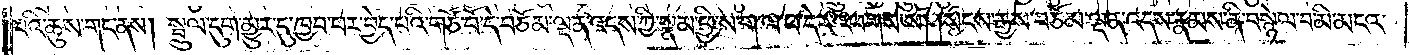པའི་ཆུས་གང་ནས། སྦྲུལ་དུག་མྱུར་དུ་ཁྱབ་པར་བྱེད་པའི་གཙོ་བོ་དེ་བཅོམ་ལྡན་འདས་ཀྱི་སྣམ་ཕྱི་ས་ག་ལབ་དེར་འཕགས་སོ། །སངས་རྒྱས་བཅོམ་ལྡན་འདས་རྣམས་ནི་བསྙེལ་བ་མི་མངའ་
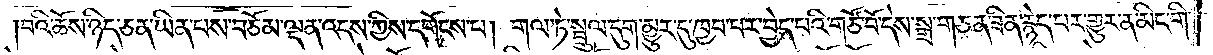བའི་ཆོས་ཉིད་ཅན་ཡིན་པས་བཅོམ་ལྡན་འདས་ཀྱིས་དགོངས་པ། གལ་ཏེ་སྦྲུལ་དུག་མྱུར་དུ་ཁྱབ་པར་བྱེད་པའི་གཙོ་བོ་དེས་སྒྲ་གཅན་ཟིན་རྙེད་པར་གྱུར་ན་མིང་གི་
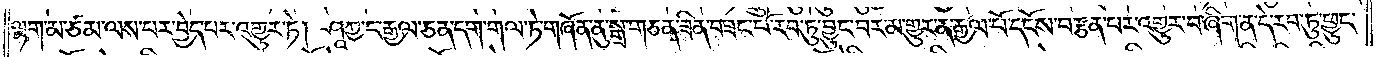ལྷག་མ་ཙམ་ལས་པར་བྱེད་པར་འགྱུར་ཏེ། ཤཱཀྱ་ང་རྒྱལ་ཅན་དག་གལ་ཏེ་གཞོན་ནུ་སྒྲ་གཅན་ཟིན་བཟང་པོ་རབ་ཏུ་བྱུང་བར་མ་གྱུར་ན་རྒྱལ་པོ་དངོས་བརྩན་པར་འགྱུར་བ་ཞིག་ན་དེ་རབ་ཏུ་ཕྱུང་
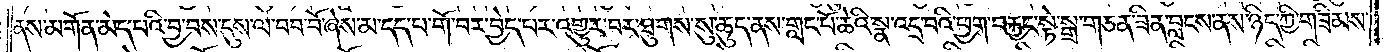ནས་མགོན་མེད་པའི་བྱ་བས་དུས་ལ་བབ་བོ་ཞེས་མ་དད་པ་གོ་བར་བྱེད་པར་འགྱུར་བར་ཐུགས་སུ་ཆུད་ནས་གླང་པོ་ཆེའི་སྣ་འདྲ་བའི་ཕྱག་བརྐྱང་སྟེ་སྒྲ་གཅན་ཟིན་བླངས་ནས་ཉིད་ཀྱི་གཟིམས་
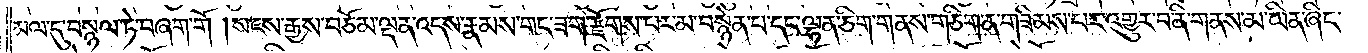མལ་དུ་བསྙལ་ཏེ་བཞག་གོ །སངས་རྒྱས་བཅོམ་ལྡན་འདས་རྣམས་གང་ཟག་རྫོགས་པར་མ་བསྙེན་པ་དང་ལྷན་ཅིག་གནས་གཅིག་ན་གཟིམས་པར་འགྱུར་བ་ནི་གནས་མ་ཡིན་ཞིང་
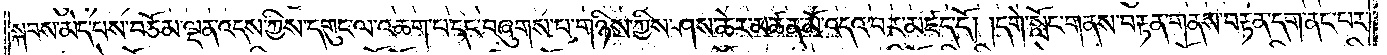སྐབས་མེད་པས་བཅོམ་ལྡན་འདས་ཀྱིས་དགུང་ལ་འཆག་པ་དང་བཞུགས་པ་གཉིས་ཀྱིས་ཤས་ཆེར་མཚན་མོ་འདའ་བར་མཛད་དོ། །དགེ་སློང་གནས་བརྟན་གནས་བརྟན་དག་ནང་པར་
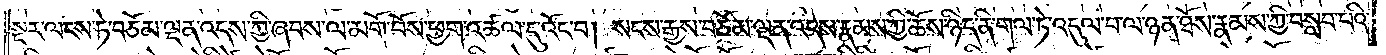སྔར་ལངས་ཏེ་བཅོམ་ལྡན་འདས་ཀྱི་ཞབས་ལ་མགོ་བོས་ཕྱག་འཚལ་དུ་འོང་བ། སངས་རྒྱས་བཅོམ་ལྡན་འདས་རྣམས་ཀྱི་ཆོས་ཉིད་ནི་གལ་ཏེ་འདུལ་བ་ལ་ཉན་ཐོས་རྣམས་ཀྱི་བསླབ་པའི་
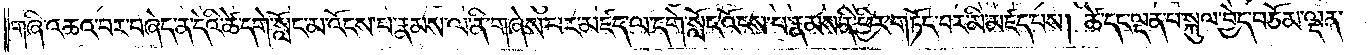གཞི་འཆའ་བར་བཞེད་ན་དེའི་ཚེ་དགེ་སློང་མ་འོངས་པ་རྣམས་ལ་ནི་གཞེས་པར་མཛད་ལ་དགེ་སློང་འོངས་པ་རྣམས་ནི་ཕྱིར་གཏོང་བར་མི་མཛད་པས། ཚེ་དང་ལྡན་པ་སྐུལ་བྱེད་བཅོམ་ལྡན་
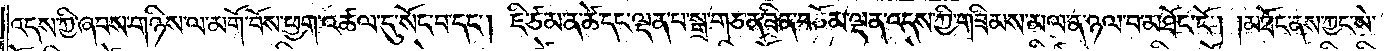འདས་ཀྱི་ཞབས་གཉིས་ལ་མགོ་བོས་ཕྱག་འཚལ་དུ་སོང་བ་དང༌། ཇི་ཙམ་ན་ཚེ་དང་ལྡན་པ་སྒྲ་གཅན་ཟིན་བཅོམ་ལྡན་འདས་ཀྱི་གཟིམས་མལ་ན་ཉལ་བ་མཐོང་ངོ༌། །མཐོང་ནས་ཀྱང་སེ་
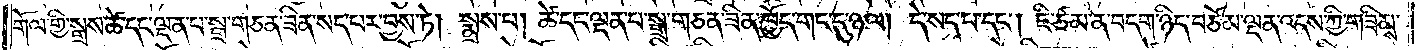གོལ་གྱི་སྒྲས་ཚེ་དང་ལྡན་པ་སྒྲ་གཅན་ཟིན་སད་པར་བྱས་ཏེ། སྨྲས་པ། ཚེ་དང་ལྡན་པ་སྒྲ་གཅན་ཟིན་ཁྱོད་གང་དུ་ཉལ། དེ་སད་པ་དང༌། ཇི་ཙམ་ན་བདག་ཉིད་བཅོམ་ལྡན་འདས་ཀྱི་གཟིམས་
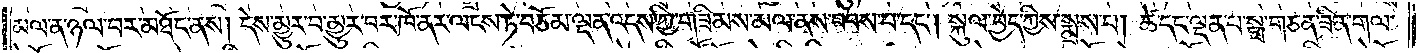མལ་ན་ཉལ་བར་མཐོང་ནས། དེས་མྱུར་བ་མྱུར་བར་ཁོ་ནར་ལངས་ཏེ་བཅོམ་ལྡན་འདས་ཀྱི་གཟིམས་མལ་ནས་བབས་པ་དང༌། སྐུལ་བྱེད་ཀྱིས་སྨྲས་པ། ཚེ་དང་ལྡན་པ་སྒྲ་གཅན་ཟིན་གལ་
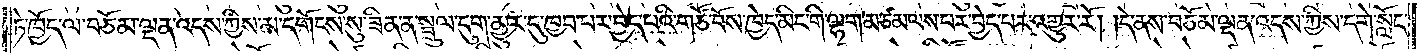ཏེ་ཁྱོད་ལ་བཅོམ་ལྡན་འདས་ཀྱིས་མ་དགོངས་སུ་ཟིན་ན་སྦྲུལ་དུག་མྱུར་དུ་ཁྱབ་པར་བྱེད་པའི་གཙོ་བོས་ཁྱེད་མིང་གི་ལྷག་མ་ཙམ་ལས་བར་བྱེད་པར་འགྱུར་རོ། །དེ་ནས་བཅོམ་ལྡན་འདས་ཀྱིས་དགེ་སློང་
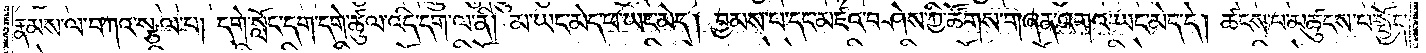རྣམས་ལ་བཀའ་སྩལ་པ། དགེ་སློང་དག་དགེ་ཚུལ་འདི་དག་ལ་ནི། མ་ཡང་མེད་ཕ་ཡང་མེད། བྱམས་པ་དང་མཛའ་བཤེས་ཀྱི་ཚོགས་གཞན་འགའ་ཡང་མེད་དེ། ཚངས་པ་མཚུངས་པ་སྤྱོད་
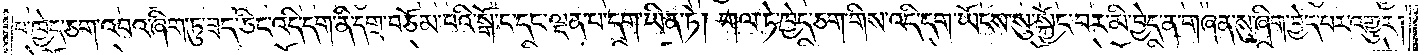པ་ཁྱེད་ཅག་འབའ་ཞིག་ཏུ་ཟད་ཅིང་འདི་དག་ནི་དགྲ་བཅོམ་པའི་སྒོ་ང་དད་ལྡན་པ་དག་ཡིན་ཏེ། གལ་ཏེ་ཁྱེད་ཅག་གིས་འདི་དག་ཡོངས་སུ་སྐྱོང་བར་མི་བྱེད་ན་གཞན་སུ་ཞིག་བྱེད་པར་འགྱུར།
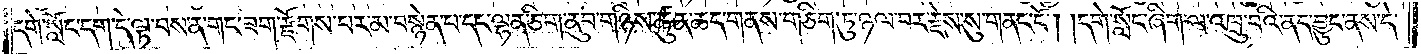དགེ་སློང་དག་དེ་ལྟ་བས་ན་གང་ཟག་རྫོགས་པར་མ་བསྙེན་པ་དང་ལྷན་ཅིག་ནུབ་གཉིས་ཚུན་ཆད་གནས་གཅིག་ཏུ་ཉལ་བར་རྗེས་སུ་གནང་ངོ༌། །དགེ་སློང་ཞིག་ལ་འཁྲུ་བའི་ནད་བྱུང་ནས་དེ་
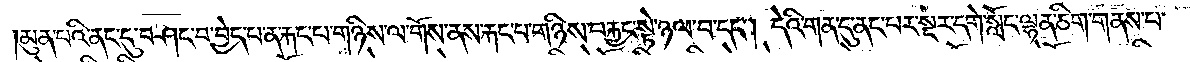མུན་པའི་ནང་དུ་བཤང་བ་བྱེད་པ་ན་རྐང་པ་གཉིས་ལ་གོས་ནས་རྐང་པ་གཉིས་བརྐྱང་སྟེ་ཉལ་བ་དང༌། དེའི་གན་དུ་ནང་པར་སྔར་དགེ་སློང་ལྷན་ཅིག་གནས་པ་
